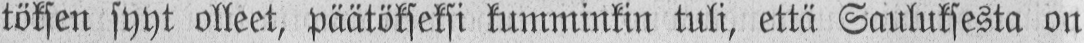töksen syyt olleet, päätökseksi kumminkin tuli, että Sauluksesta on
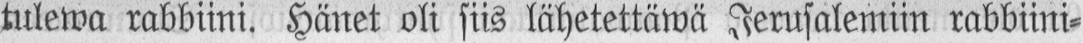tulewa rabbiini. Hänet oli siis lähetettäwä Jerusalemiin rabbiini-
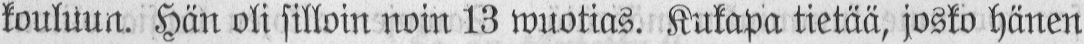kouluun. Hän oli silloin noin 13 wuotias. Kukapa tietää, josko hänen
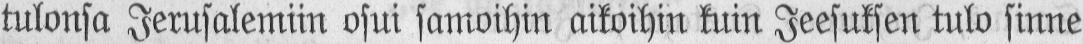tulonsa Jerusalemiin osui samoihin aikoihin kuin Jeesuksen tulo sinne
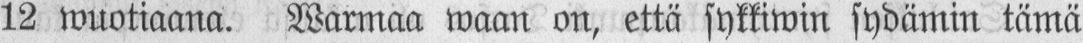12 wuotiaana. Warmaa waan on, että sykkiwin sydämin tämä
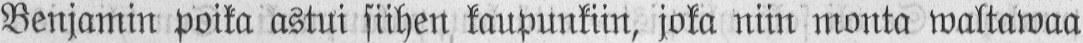Benjamin poika astui siihen kaupunkiin, joka niin monta waltawaa
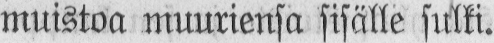muistoa muuriensa sisälle sulki.
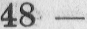48
